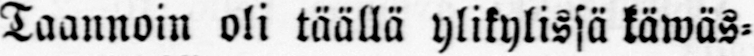Taannoin oli täällä ylikylissä käwäs-
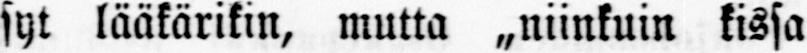syt lääkärikin, mutta „niinkuin kissa
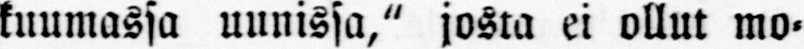kuumassa uunissa," josta ei ollut mo-
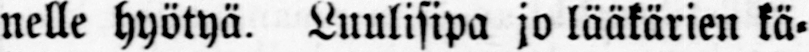nelle hyötyä. Luulisipa jo lääkärien kä-
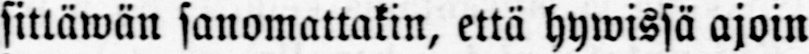sittäwän sanomattakin, että hywissä ajoin
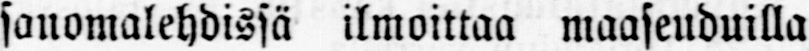sanomalehdissä ilmoittaa maaseuduilla
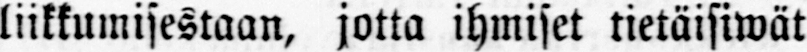liikkumisestaan, jotta ihmiset tietäisiwät
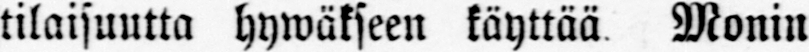tilaisuutta hywäkseen käyttää. Monin
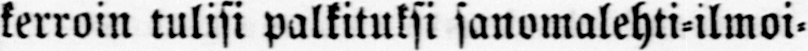kerroin tulisi palkituksi sanomalehti-ilmoi-
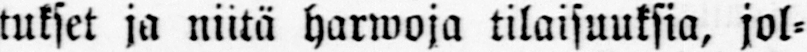tukset ja niitä harwoja tilaisuuksia, jol-
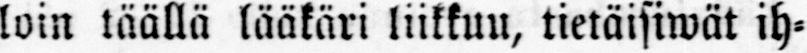loin täällä lääkäri liikkuu, tietäisiwät ih-
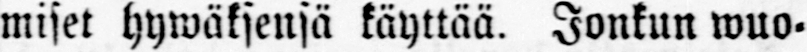miset hywäksensä käyttää. Jonkun wuo-
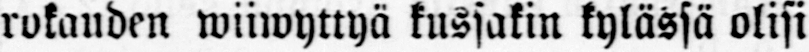rokauden wiiwyttyä kussakin kylässä olisi
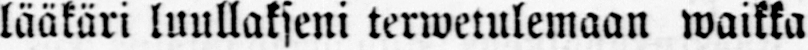lääkäri luullakseni terwetulemaan waikka
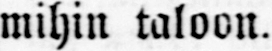mihin taloon.
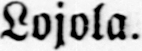Lojola.
